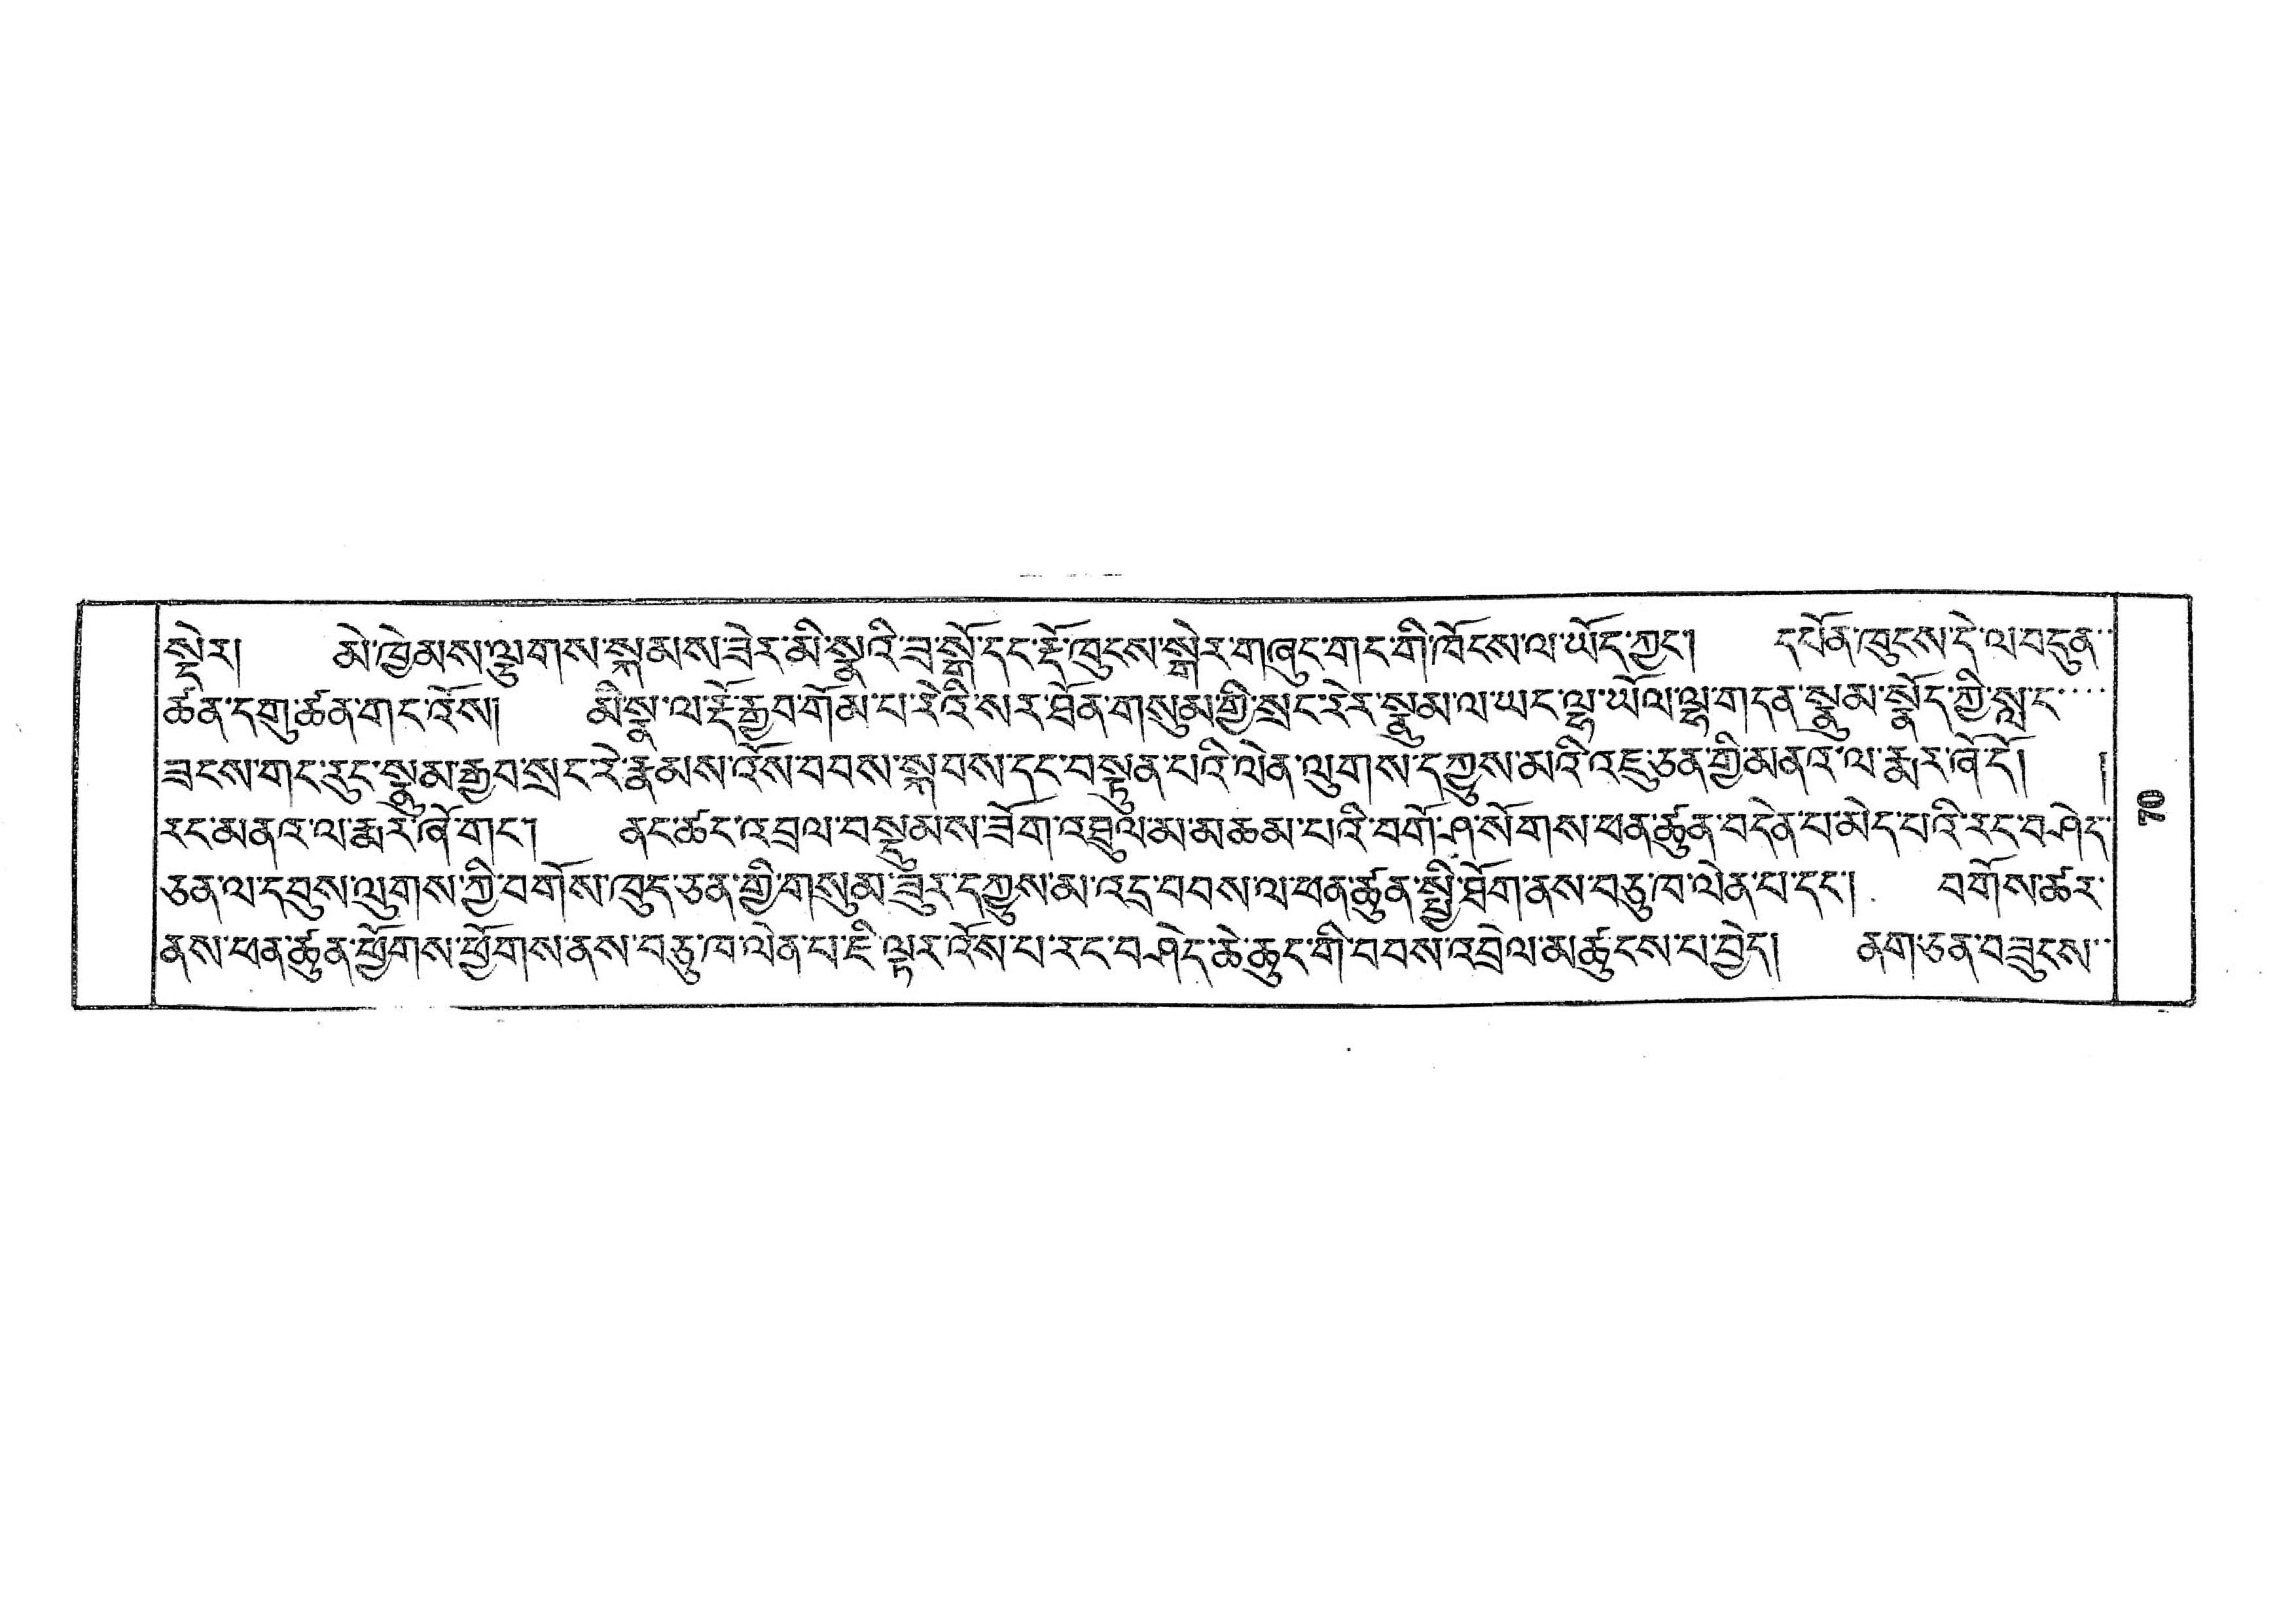སྡེར། མེ་ཁྱེམས་ལྕགས་སྐམས་ཟེར་མི་སྣའི་ཟ་སྒོ་དང་རྡོ་ཁུངས་སྒེར་གཞུང་གང་གི་ཁོངས་ལ་ཡོད་ཀྱང་། དཔོན་ཁུངས་དེ་ལ་བདུན་་
ཚན་དགུ་ཚན་གང་འོས། མི་སྣ་ལ་རྡོ་རྒྱབ་གོམ་པ་རེའི་སར་ཐོན་གསུམ་གྱི་སྲང་རེར་སྣུམ་ལ་ཡང་ལྷ་ཡོལ་ལྷ་གདན་སྣུམ་སྣོད་ཀྱི་སླ་ང་་་་
ཟངས་གང་རུང་སྣུམ་རྒྱབ་སྲང་རེ་རྣམས་འོས་བབས་སྐབས་དང་བསྟུན་པའི་ལེན་ལུགས་དཀྱུས་མའི་འཇུ་ཅན་གྱི་མནའ་ལ་རྨར་ཞོ་དོ། །
རང་མནའ་ལ་རྨར་ཞོ་གང་། ནང་ཚང་འབྲལ་བསྡུམས་ཟོག་འཐུལ་མ་མཆམ་པའི་བགོ་ཤ་སོགས་ཕན་ཚུན་བདེན་པ་མེད་པའི་རང་བཤེད་
ཅན་ལ་དབུས་ལུགས་ཀྱི་བགོས་ཁུད་ཅན་གྱི་གསུམ་ཟུར་དཀྱུས་མ་འདྲ་བབས་ལ་ཕན་ཚུན་སྤྱི་ཐོག་ནས་བཅུ་ཁ་ལེན་པ་དང་། བགོས་ཚར་
ནས་ཕན་ཚུན་ཕྱོགས་ཕྱོགས་ནས་བཅུ་ཁ་ལེན་པ་ཇི་ལྟར་འོས་པ་རང་བཤེད་ཆེ་ཆུང་གི་བབས་འབྲེལ་མཚུངས་པ་བྱེད། ནག་ཅན་བཟུངས་་
